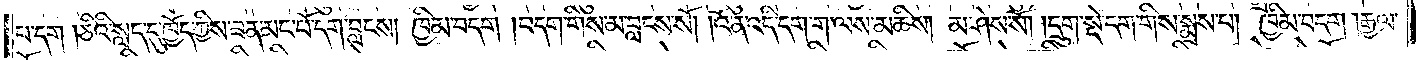པ་དག །ཅིའི་སླད་དུ་ཁྱོད་ཀྱིས་ཟན་མང་པོ་དག་བླངས། ཁྱིམ་བདག །བདག་གིས་མ་བླངས་སོ། །འོ་ན་འདི་དག་ག་ལས་མཆིས། མ་ཤེས་སོ། །དྲུག་སྡེ་དག་གིས་སྨྲས་པ། ཁྱིམ་བདག །རྒྱལ་
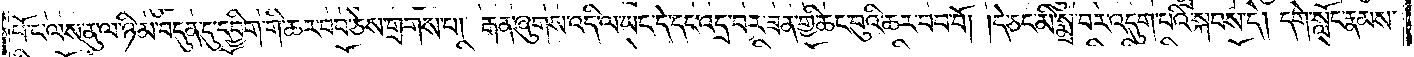པོ་ང་ལས་ནུ་ལ་ཉི་མ་བདུན་དུ་དབྱིག་གི་ཆར་བབ་ཅེས་གྲགས་པ། རྒན་ཞུགས་འདི་ལ་ཡང་དེ་དང་འདྲ་བར་ཟན་གྱི་ཆང་བུའི་ཆར་བབ་བོ། །དེ་ཅང་མི་སྨྲ་བར་འདུག་པའི་སྐབས་དེ། དགེ་སློང་རྣམས་
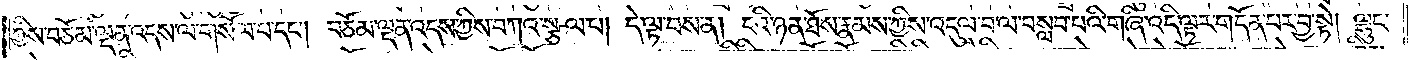ཀྱིས་བཅོམ་ལྡན་འདས་ལ་གསོལ་པ་དང༌། བཅོམ་ལྡན་འདས་ཀྱིས་བཀའ་སྩལ་པ། དེ་ལྟ་བས་ན། ངའི་ཉན་ཐོས་རྣམས་ཀྱིས་འདུལ་བ་ལ་བསླབ་པའི་གཞི་འདི་ལྟར་གདོན་པར་བྱ་སྟེ། ལྷུང་
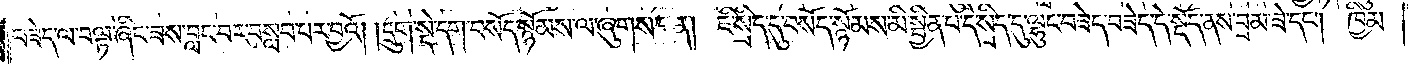བཟེད་ལ་བལྟ་ཞིང་ཟླས་བླང་བར་བསླབ་པར་བྱའོ། །དྲུག་སྡེ་དག་བསོད་སྙོམས་ལ་ཞུགས་པ་ན། ཇི་སྲིད་དུ་བསོད་སྙོམས་མི་སྦྱིན་པ་དེ་སྲིད་དུ་ལྷུང་བཟེད་བཟེད་དེ་སྡོད་ནས་བྲམ་ཟེ་དང༌། ཁྱིམ་
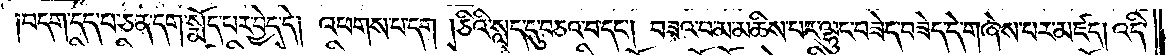།བདག་དད་པ་ཅན་དག་སྨོད་པར་བྱེད་དེ། འཕགས་པ་དག །ཅིའི་སླད་དུ་བཅའ་བ་དང༌། བཟའ་བ་མ་མཆིས་པར་ལྷུང་བཟེད་བཟེད་དེ་གཞེས་བར་མཛད། འདི་
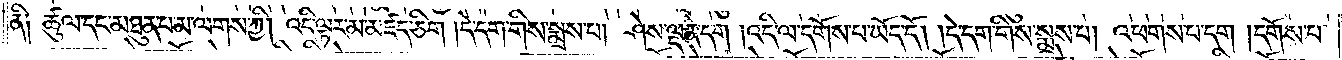ནི༑ ཚུལ་དང་མཐུན་པ་མ་ལགས་ཀྱི། འདི་ལྟར་མ་མཛད་ཅིག །དེ་དག་གིས་སྨྲས་པ། ཤེས་ལྡན་དག །འདི་ལ་དགོས་པ་ཡོད་དོ། །དེ་དག་གིས་སྨྲས་པ། འཕགས་པ་དག །དགོས་པ་
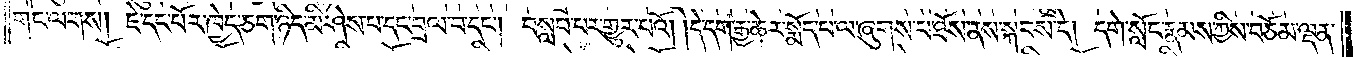གང་ལགས། ཇེ་དང་པོར་ཁྱེད་ཅག་ཉིད་མི་ཤེས་པ་དང་བྲལ་བ་དང༌། བསླབ་པར་གྱུར་པའོ། །དེ་དག་རྒྱ་ཆེར་སྨོད་པ་ལ་ཞུགས་པ་ཐོས་ནས་སྐབས་དེ། དགེ་སློང་རྣམས་ཀྱིས་བཅོམ་ལྡན་
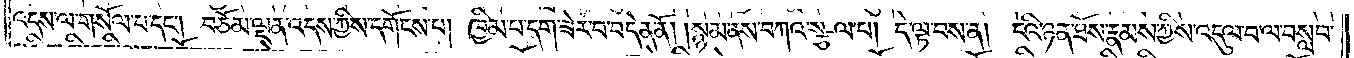འདས་ལ་གསོལ་བ་དང༌། བཅོམ་ལྡན་འདས་ཀྱིས་དགོངས་པ། ཁྱིམ་པ་དག་ཟེར་བ་བདེན་ནོ། །སྙམ་ནས་བཀའ་སྩལ་པ། དེ་ལྟ་བས་ན། ངའི་ཉན་ཐོས་རྣམས་ཀྱིས་འདུལ་བ་ལ་བསླབ་
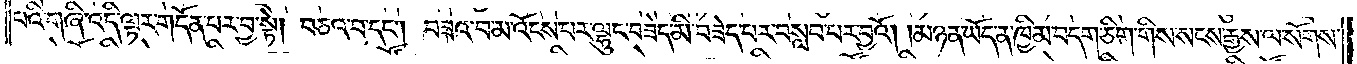པའི་གཞི་འདི་ལྟར་གདོན་པར་བྱ་སྟེ། བཅའ་བ་དང༌། བཟའ་བ་མ་འོངས་པར་ལྷུང་བཟེད་མི་བཟེད་པར་བསླབ་པར་བྱའོ། །མཉན་ཡོད་ན་ཁྱིམ་བདག་ཅིག་གིས་སངས་རྒྱས་ལ་སོགས་
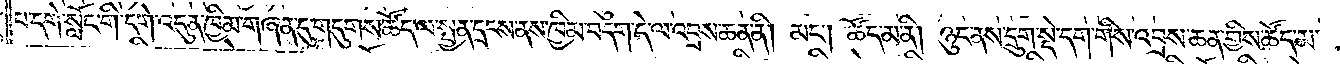པ་དགེ་སློང་གི་དགེ་འདུན་ཁྱིམ་གཞན་དུ་གདུགས་ཚོད་ལ་སྤྱན་དྲངས་ནས་ཁྱིམ་བདག་དེ་ལ་འབྲས་ཆན་ནི། མང༌། ཚོད་མ་ནི། ཉུང་ནས་དྲུག་སྡེ་དག་གིས་འབྲས་ཆན་གྱིས་ཚོད་མ་
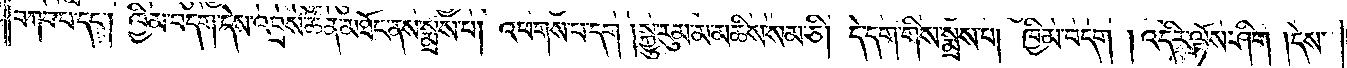བཀབ་པ་དང༌། ཁྱིམ་བདག་དེས་འབྲས་ཆན་མཐོང་ནས་སྨྲས་པ། འཕགས་པ་དག །སྐྱུ་རུམ་མ་མཆིས་སམ་ཅི། དེ་དག་གིས་སྨྲས་པ། ཁྱིམ་བདག །འདིར་ལྟོས་ཤིག །དེས་
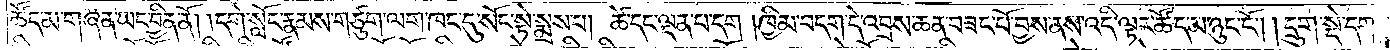ཚོད་མ་གཞན་ཡང་བྱིན་ནོ། །དགེ་སློང་རྣམས་གཙུག་ལག་ཁང་དུ་སོང་སྟེ་སྨྲས་པ། ཚེ་དང་ལྡན་པ་དག །ཁྱིམ་བདག་དེ་འབྲས་ཆན་བཟང་པོ་བྱས་ནས་འདི་ལྟར་ཚོད་མ་ཉུང་ངོ༌། །དྲུག་སྡེ་དག་
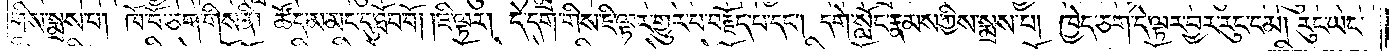གིས་སྨྲས་པ། ཁོ་བོ་ཅག་གིས་ནི། ཚོད་མ་མང་དུ་ཐོབ་བོ། །ཇི་ལྟར། དེ་དག་གིས་ཇི་ལྟར་གྱུར་པ་བརྗོད་པ་དང༌། དགེ་སློང་རྣམས་ཀྱིས་སྨྲས་པ། ཁྱེད་ཅག་དེ་ལྟར་བྱར་རུང་ངམ། རུང་ཡང་
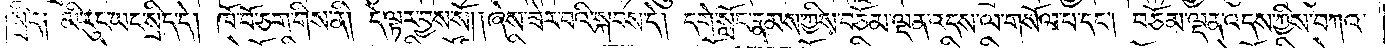།སྲིད༑ མི་རུང་ཡང་སྲིད་དེ། ཁོ་བོ་ཅག་གིས་ནི། དེ་ལྟར་བྱས་སོ། །ཞེས་ཟེར་བའི་སྐབས་དེ། དགེ་སློང་རྣམས་ཀྱིས་བཅོམ་ལྡན་འདས་ལ་གསོལ་བ་དང༌། བཅོམ་ལྡན་འདས་ཀྱིས་བཀའ་
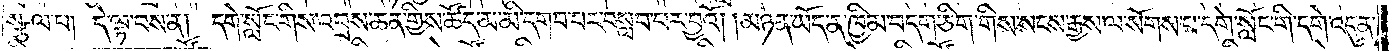སྩལ་པ། དེ་ལྟ་བས་ན། དགེ་སློང་གིས་འབྲས་ཆན་གྱིས་ཚོད་མ་མི་དགབ་པར་བསླབ་པར་བྱའོ། །མཉན་ཡོད་ན་ཁྱིམ་བདག་ཅིག་གིས་སངས་རྒྱས་ལ་སོགས་པ་དགེ་སློང་གི་དགེ་འདུན་
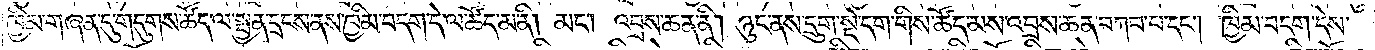ཁྱིམ་གཞན་དུ་གདུགས་ཚོད་ལ་སྤྱན་དྲངས་ནས་ཁྱིམ་བདག་དེ་ལ་ཚོད་མ་ནི། མང༌། འབྲས་ཆན་ནི། ཉུང་ནས་དྲུག་སྡེ་དག་གིས་ཚོད་མས་འབྲས་ཆན་བཀབ་པ་དང༌། ཁྱིམ་བདག་དེས་
